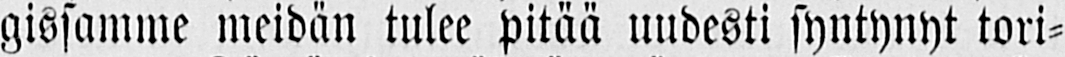gissamme meidän tulee pitää uudesti syntynyt tori-
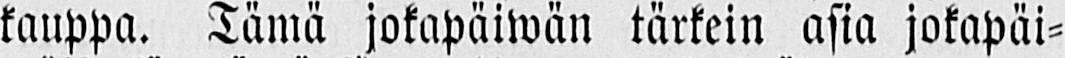kauppa. Tämä jokapäiwän tärkein asia jokapäi-
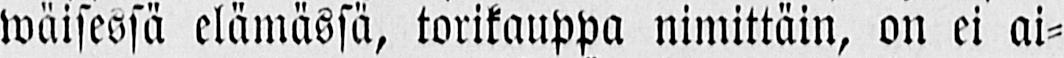wäisessä elämässä, torikauppa nimittäin, on ei ai-
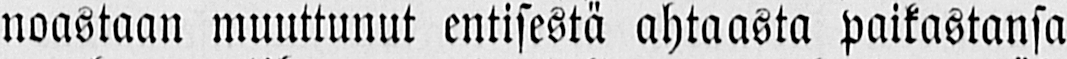noastaan muuttunut entisestä ahtaasta paikastansa
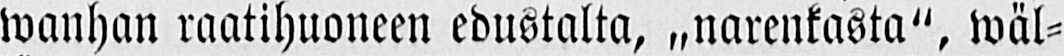wanhan raatihuoneen edustalta, „narenkasta", wäl-
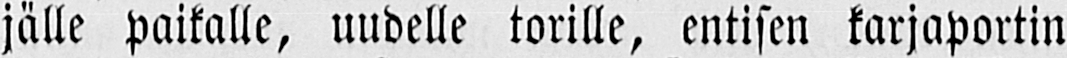jälle paikalle, uudelle torille, entisen karjaportin
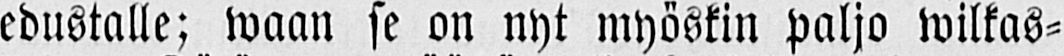edustalle; waan se on nyt myöskin paljo wilkas-
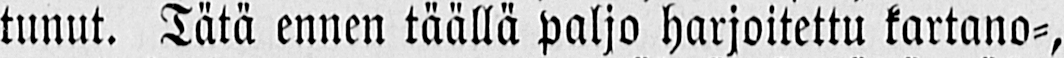tunut. Tätä ennen täällä paljo harjoitettu kartano-,
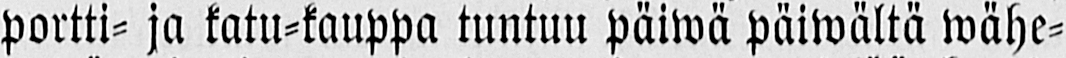portti- ja katu-kauppa tuntuu päiwä päiwältä wähe-
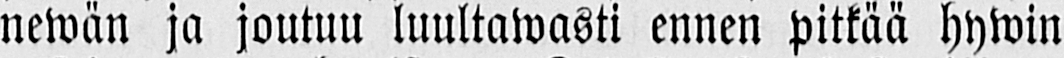newän ja joutuu luultawasti ennen pitkää hywin
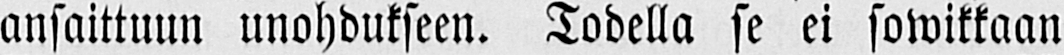ansaittuun unohdukseen. Todella se ei sowikkaan
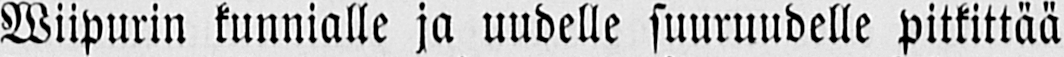Wiipurin kunnialle ja uudelle suuruudelle pitkittää
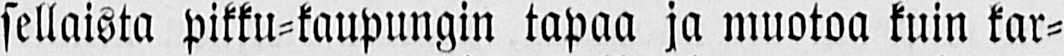sellaista pikku-kaupungin tapaa ja muotoa kuin kar-
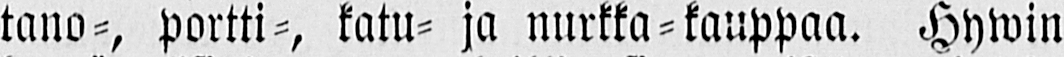tano-, portti-, katu- ja nurkka-kauppaa. Hywin
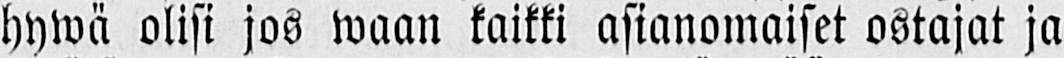hywä olisi jos waan kaikki asianomaiset ostajat ja
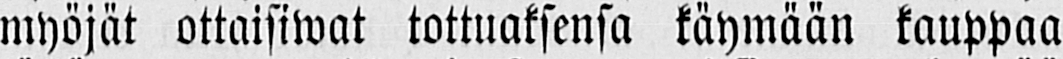myöjät ottaisiwat tottuaksensa käymään kauppaa
